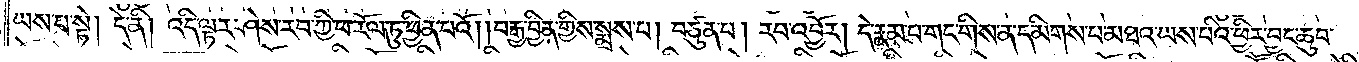ཡས་པ་སྟེ། དེ་ནི། འདི་ལྟར་ཤེས་རབ་ཀྱི་ཕ་རོལ་ཏུ་ཕྱིན་པའོ། །བརྒྱ་བྱིན་གྱིས་སྨྲས་པ། བཙུན་པ། རབ་འབྱོར། དེ་རྣམ་པ་གང་གིས་ན་དམིགས་པ་མཐའ་ཡས་པའི་ཕྱིར་བྱང་ཆུབ་
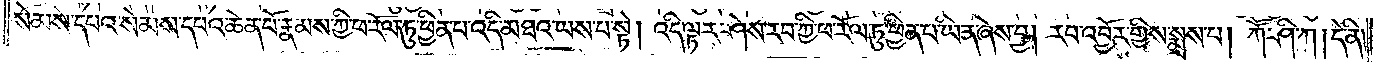སེམས་དཔའ་སེམས་དཔའ་ཆེན་པོ་རྣམས་ཀྱི་ཕ་རོལ་ཏུ་ཕྱིན་པ་འདི་མཐའ་ཡས་པ་སྟེ། འདི་ལྟར་ཤེས་རབ་ཀྱི་ཕ་རོལ་ཏུ་ཕྱིན་པ་ཡིན་ཞེས་བྱ། རབ་འབྱོར་གྱིས་སྨྲས་པ། ཀཽ་ཤི་ཀ། དེ་ནི།
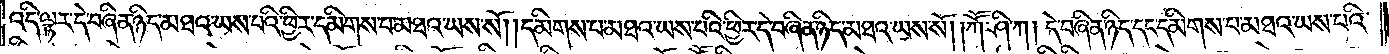འདི་ལྟར་དེ་བཞིན་ཉིད་མཐའ་ཡས་པའི་ཕྱིར་དམིགས་པ་མཐའ་ཡས་སོ། །དམིགས་པ་མཐའ་ཡས་པའི་ཕྱིར་དེ་བཞིན་ཉིད་མཐའ་ཡས་སོ། །ཀོ་ཤི་ཀ། དེ་བཞིན་ཉིད་དང་དམིགས་པ་མཐའ་ཡས་པའི་
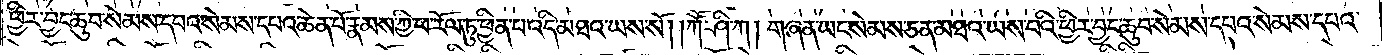ཕྱིར་བྱང་ཆུབ་སེམས་དཔའ་སེམས་དཔའ་ཆེན་པོ་རྣམས་ཀྱི་ཕ་རོལ་ཏུ་ཕྱིན་པ་འདི་མཐའ་ཡས་སོ། །ཀཽ་ཤི་ཀ། གཞན་ཡང་སེམས་ཅན་མཐའ་ཡས་པའི་ཕྱིར་བྱང་ཆུབ་སེམས་དཔའ་སེམས་དཔའ་
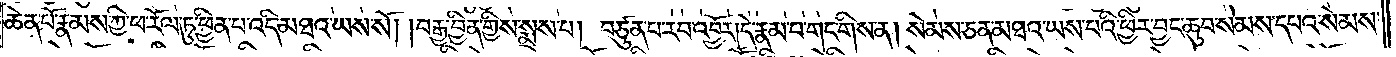ཆེན་པོ་རྣམས་ཀྱི་ཕ་རོལ་ཏུ་ཕྱིན་པ་འདི་མཐའ་ཡས་སོ། །བརྒྱ་བྱིན་གྱིས་སྨྲས་པ། བཙུན་པ་རབ་འབྱོར་དེ་རྣམ་པ་གང་གིས་ན། སེམས་ཅན་མཐའ་ཡས་པའི་ཕྱིར་བྱང་ཆུབ་སེམས་དཔའ་སེམས་
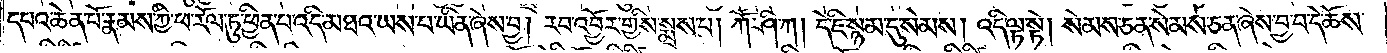དཔའ་ཆེན་པོ་རྣམས་ཀྱི་ཕ་རོལ་ཏུ་ཕྱིན་པ་འདི་མཐའ་ཡས་པ་ཡིན་ཞེས་བྱ། རབ་འབྱོར་གྱིས་སྨྲས་པ། ཀཽ་ཤི་ཀ། དེ་ཇི་སྙམ་དུ་སེམས། འདི་ལྟ་སྟེ། སེམས་ཅན་སེམས་ཅན་ཞེས་བྱ་བ་དེ་ཆོས་
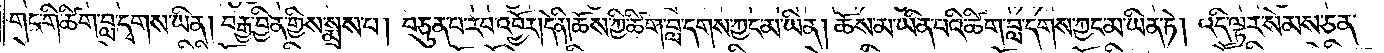གང་གི་ཚིག་བླ་དགས་ཡིན། བརྒྱ་བྱིན་གྱིས་སྨྲས་པ། བཙུན་པ་རབ་འབྱོར། དེ་ནི། ཆོས་ཀྱི་ཚིག་བླ་དགས་ཀྱང་མ་ཡིན། ཆོས་མ་ཡིན་པའི་ཚིག་བླ་དགས་ཀྱང་མ་ཡིན་ཏེ། འདི་ལྟར་སེམས་ཅན་
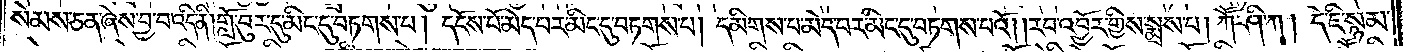སེམས་ཅན་ཞེས་བྱ་བ་འདི་ནི་གློ་བུར་དུ་མིང་དུ་བཏགས་པ། དངོས་པོ་མེད་པར་མིང་དུ་བཏགས་པ། དམིགས་པ་མེད་པར་མིང་དུ་བཏགས་པའོ། །རབ་འབྱོར་གྱིས་སྨྲས་པ། ཀཽ་ཤི་ཀ། དེ་ཇི་སྙམ་
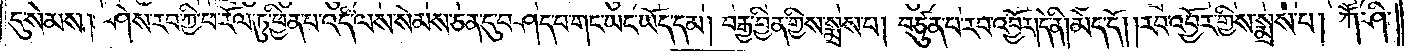དུ་སེམས། ཤེས་རབ་ཀྱི་ཕ་རོལ་ཏུ་ཕྱིན་པ་འདི་ལས་སེམས་ཅན་དུ་བཤད་པ་གང་ཡང་ཡོད་དམ། བརྒྱ་བྱིན་གྱིས་སྨྲས་པ། བཙུན་པ་རབ་འབྱོར། དེ་ནི། མེད་དོ། །རབ་འབྱོར་གྱིས་སྨྲས་པ། ཀཽ་ཤི་
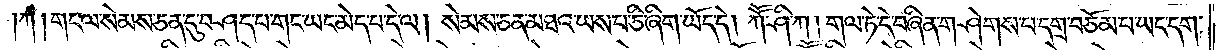ཀ། གང་ལ་སེམས་ཅན་དུ་བཤད་པ་གང་ཡང་མེད་པ་དེ་ལ། སེམས་ཅན་མཐའ་ཡས་པ་ཅི་ཞིག་ཡོད་དེ། ཀཽ་ཤི་ཀ། གལ་ཏེ་དེ་བཞིན་གཤེགས་པ་དགྲ་བཅོམ་པ་ཡང་དག་
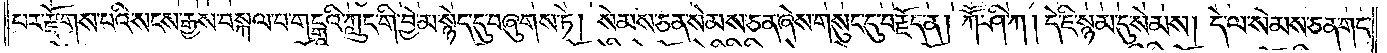པར་རྫོགས་པའི་སངས་རྒྱས་བསྐལ་པ་གངྒཱའི་ཀླུང་གི་བྱེ་མ་སྙེད་དུ་བཞུགས་ཏེ། སེམས་ཅན་སེམས་ཅན་ཞེས་གསུང་དུ་བརྗོད་ན། ཀཽ་ཤི་ཀ། དེ་ཇི་སྙམ་དུ་སེམས། དེ་ལ་སེམས་ཅན་གང་
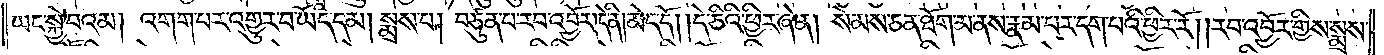ཡང་སྐྱེ་བའམ། འགག་པར་འགྱུར་བ་ཡོད་དམ། སྨྲས་པ། བཙུན་པ་རབ་འབྱོར། དེ་ནི། མེད་དོ། །དེ་ཅིའི་ཕྱིར་ཞེ་ན། སེམས་ཅན་ཐོག་མ་ནས་རྣམ་པར་དག་པའི་ཕྱིར་རོ། །རབ་འབྱོར་གྱིས་སྨྲས་
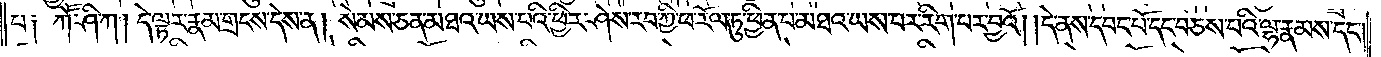པ༑ ཀཽ་ཤི་ཀ། དེ་ལྟར་རྣམ་གྲངས་དེས་ན། སེམས་ཅན་མཐའ་ཡས་པའི་ཕྱིར་ཤེས་རབ་ཀྱི་ཕ་རོལ་ཏུ་ཕྱིན་པ་མཐའ་ཡས་པར་རིག་པར་བྱའོ། །དེ་ནས་དབང་པོ་དང་བཅས་པའི་ལྷ་རྣམས་དང༌།
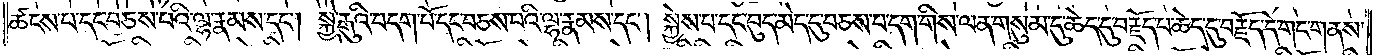ཚངས་པ་དང་བཅས་པའི་ལྷ་རྣམས་དང༌། སྐྱེ་རྒུའི་བདག་པོ་དང་བཅས་པའི་ལྷ་རྣམས་དང༌། སྐྱེས་པ་དང་བུད་མེད་དུ་བཅས་པ་དག་གིས་ལན་གསུམ་དུ་ཆེད་དུ་བརྗོད་པ་ཆེད་དུ་བརྗོད་དེ་གང་གནས་
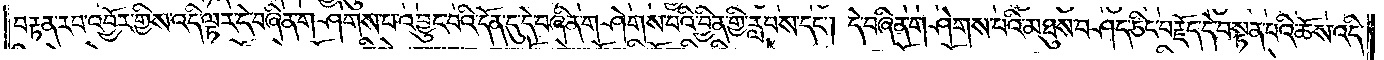བརྟན་རབ་འབྱོར་གྱིས་འདི་ལྟར་དེ་བཞིན་གཤེགས་པ་འབྱུང་བའི་དོན་དུ་དེ་བཞིན་གཤེགས་པའི་བྱིན་གྱི་རླབས་དང༌། དེ་བཞིན་གཤེགས་པའི་མཐུས་བཤད་ཅིང་བརྗོད་དེ་བསྟན་པའི་ཆོས་འདི་
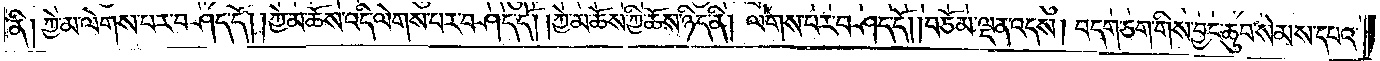ནི། ཀྱེ་མ་ལེགས་པར་བཤད་དོ། །ཀྱེ་མ་ཆོས་འདི་ལེགས་པར་བཤད་དོ། །ཀྱེ་མ་ཆོས་ཀྱི་ཆོས་ཉིད་ནི། ལེགས་པར་བཤད་དོ། །བཅོམ་ལྡན་འདས། བདག་ཅག་གིས་བྱང་ཆུབ་སེམས་དཔའ་
